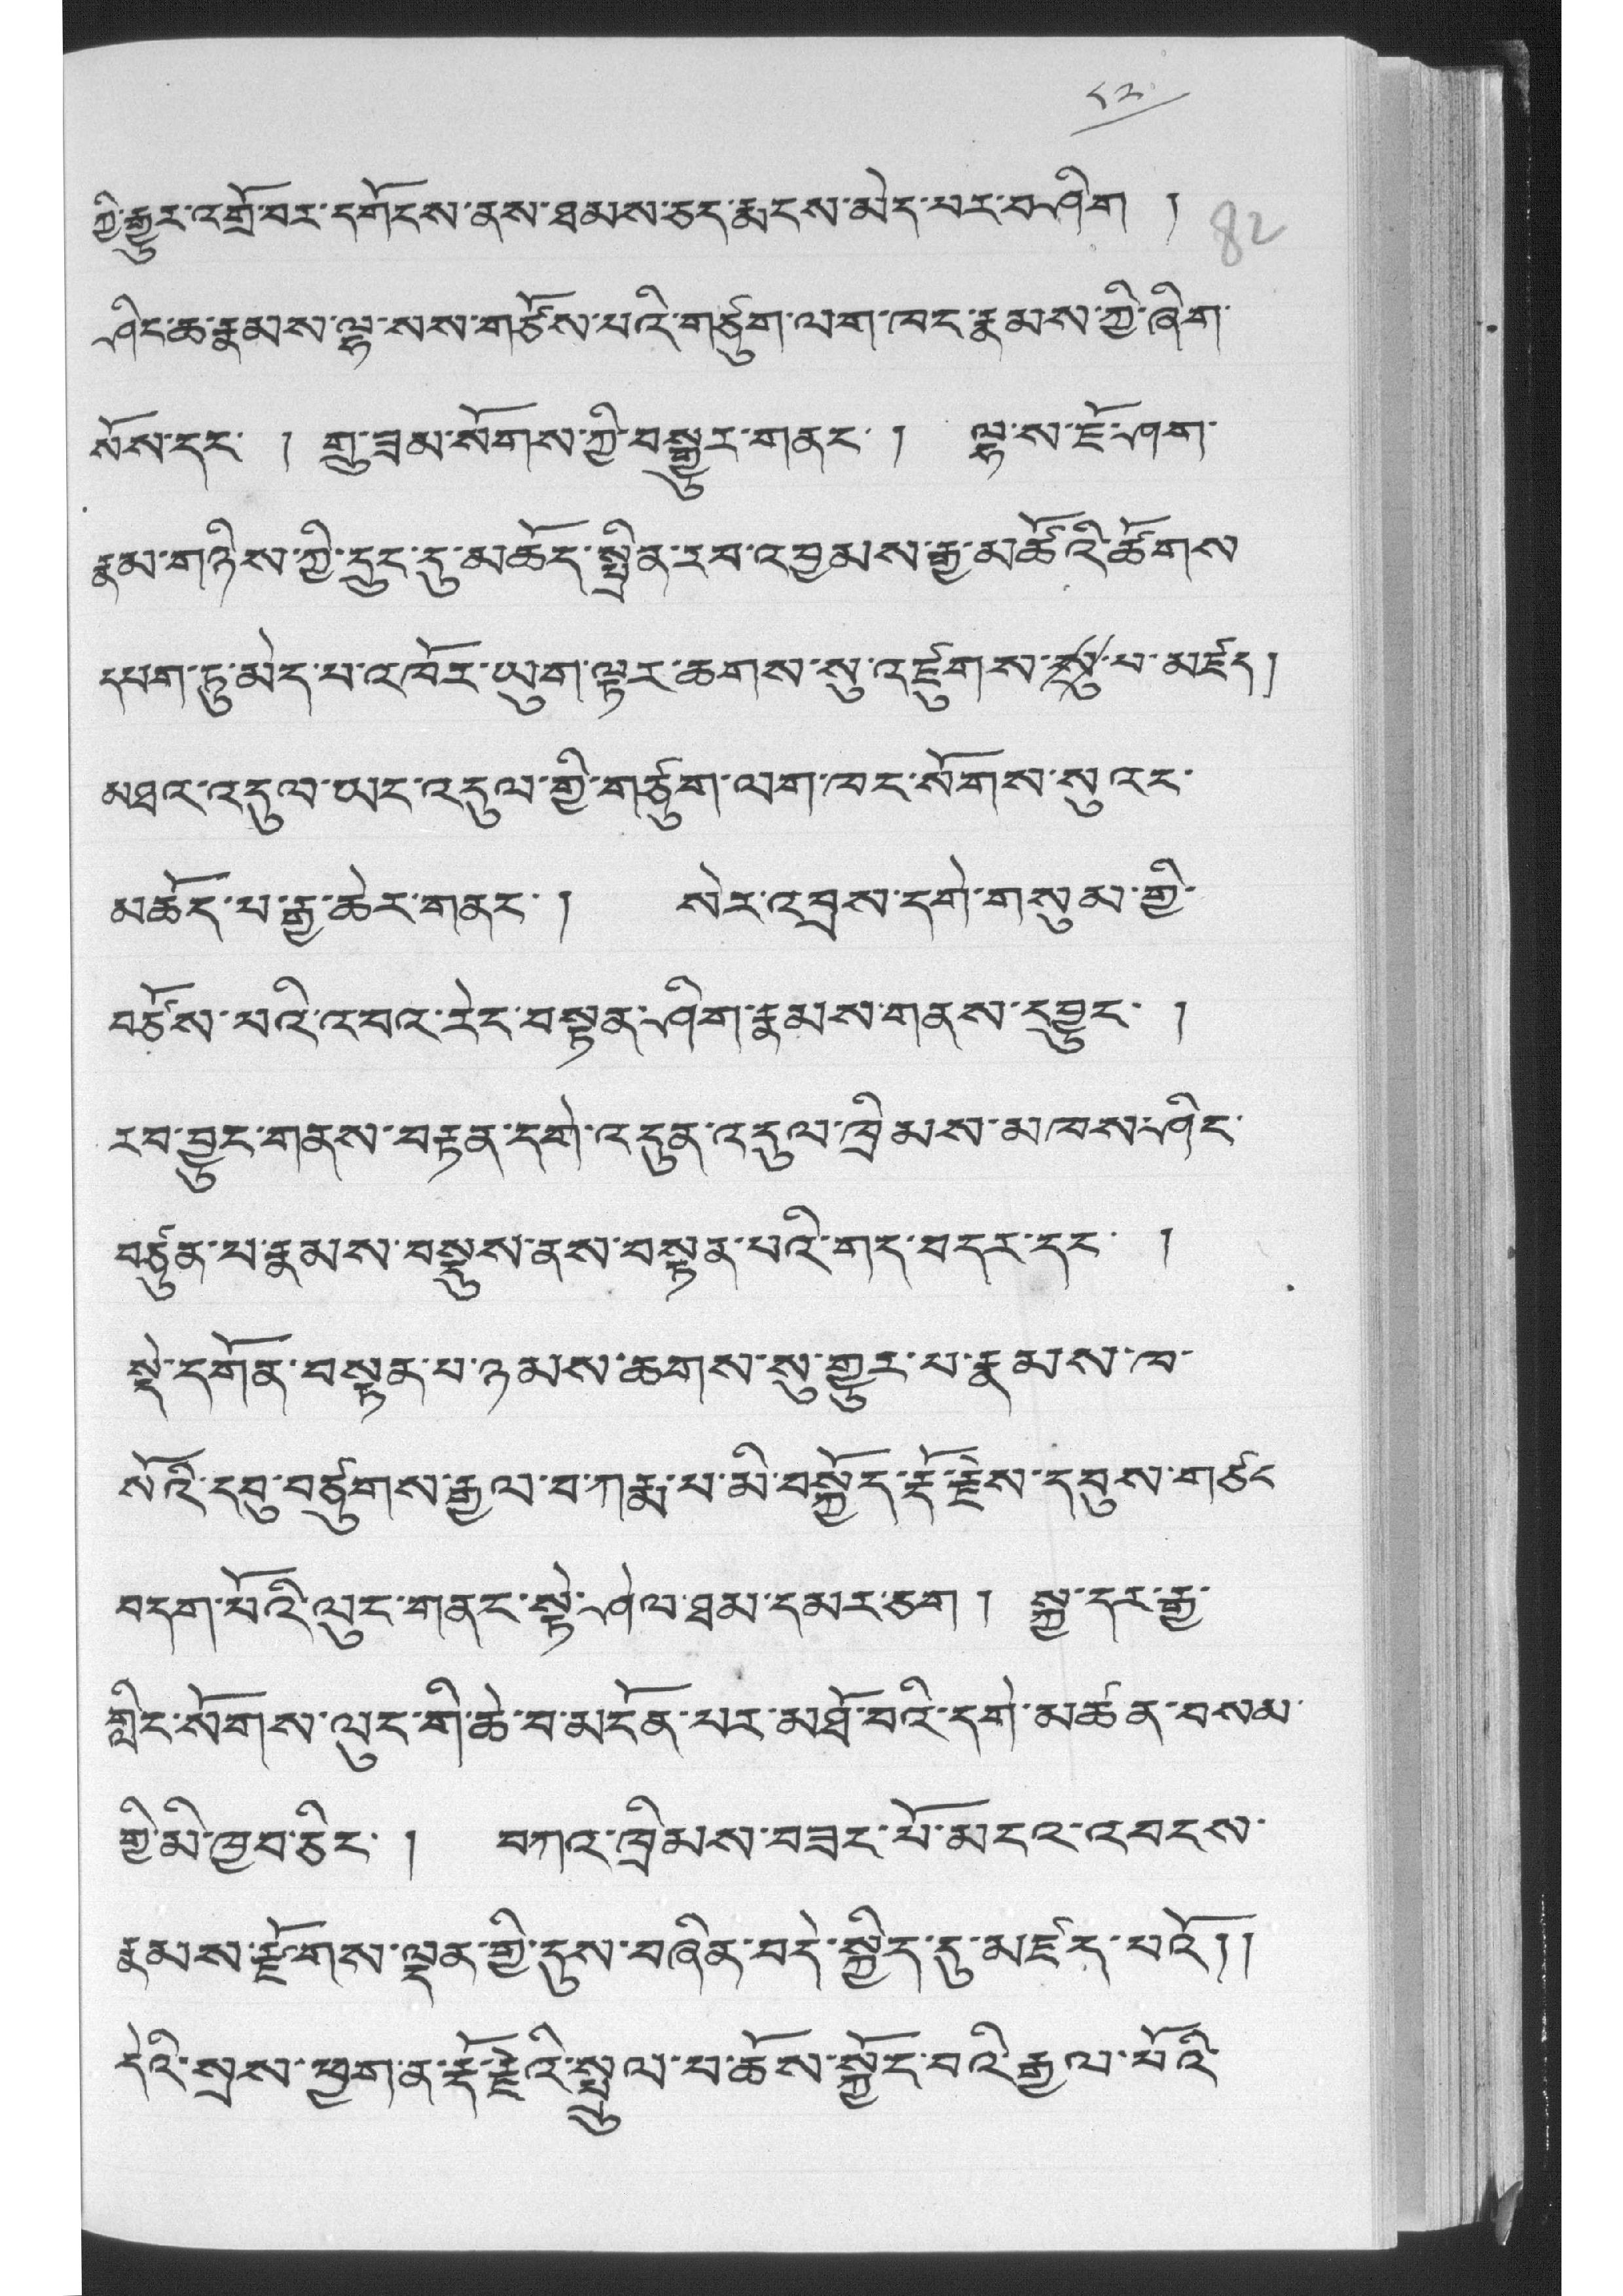༨༢
ཀྱི་རྒྱུར་འགྲོ་བར་དགོངས་ནས་ཐམས་ཅད་རྨངས་མེད་པར་བཤིག །
ཤིང་ཆ་རྣམས་ལྷ་སས་གཙོས་པའི་གཙུག་ལག་ཁང་རྣམས་ཀྱི་ཞིག་
སོས་དང་ ། གྲུ་ཟམ་སོགས་ཀྱི་བསྒྱུར་གནང་། ལྷ་ས་ཇོ་ཤག་
རྣམ་གཉིས་ཀྱི་དྲུང་དུ་མཆོད་སྤྲིན་རབ་འབྱམས་རྒྱ་མཚོའི་ཚོགས་
དཔག་ཏུ་མེད་པ་འཁོར་ཡུག་ལྟར་ཆགས་སུ་འཛུགས་སུ་པ་མཛད།
མཐའ་འདུལ་ཡང་འདུལ་གྱི་གཙུག་ལག་ཁང་སོགས་སུའང་
མཆོད་པ་རྒྱ་ཆེར་གནང་། སེར་འབྲས་དགེ་གསུམ་གྱི་
བཙོས་པའི་འབའ་རེང་བསྟན་ཤིག་རྣམས་གནས་དབྱུང་ །
རབ་བྱུར་གནས་བརྟན་དགེ་འདུན་འདུལ་ཁྲིམས་མཁས་ཤིང་
བཙུན་པ་རྣམས་བསྡུས་ནས་བསྟན་པའི་གད་བདར་དང་ །
སྡེ་དགོན་བསྟན་པ་ཉམས་ཆགས་སུ་གྱུར་པ་རྣམས་ཁ་
སོའི་དབུ་བཙུགས་རྒྱལ་བ་ཀརྨ་པ་མི་བསྐྱོད་རྡོ་རྗེས་དབུས་གཙང་
བདག་པོའི་ལུང་གནང་སྟེ་ཤེལ་ཐམ་དམར་ཅག ། སྐྱུ་དར་རྒྱ་
གླིང་སོགས་ལུང་གི་ཆེ་བ་མངོན་པར་མཐོ་བའི་དགེ་མཚན་བསམ་
གྱི་མི་ཁྱབ་ཅིང་ ། བཀའ་ཁྲིམས་བཟང་པོ་མངའ་འབངས་
རྣམས་རྫོགས་ལྡན་གྱི་དུས་བཞིན་བདེ་སྐྱིད་དུ་མཛད་པའོ།།
དེའི་སྲས་ཕྱག་ན་རྡོ་རྗེའི་སྤྲུལ་བ་ཆོས་སྐྱོང་བའི་རྒྱལ་པོའི་
